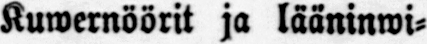Kuwernöörit ja lääninwi-
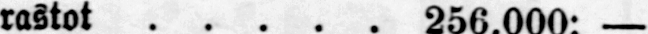rastot 256.000: —
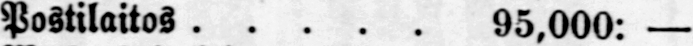Postilaitos 95,000: —
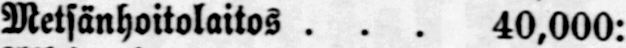Metsänhoitolaitos 40,000: —
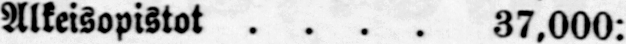Alkeisopistot 37,000: —
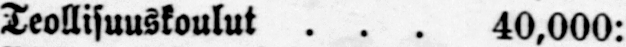Teollisuuskoulut 40,000: —
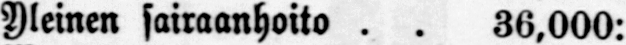Yleinen sairaanhoito 36,000: —
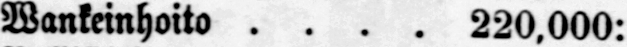Wankeinhoito 220,000: —
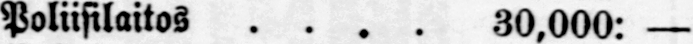Poliisilaitos 30,000: —
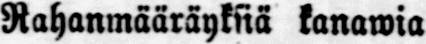Rahanmääräyksiä kanawia
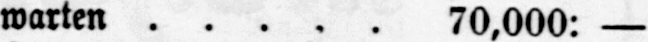warten 70,000: —
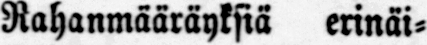Rahanmääräyksiä erinäi-
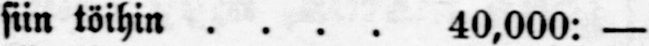siin töihin 40,000: —
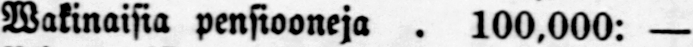Wakinaisia pensiooneja 100,000: —
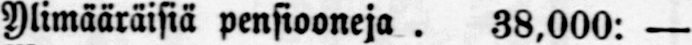Ylimääräisiä pensiooneja 38,000: —
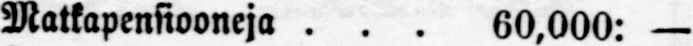Matkapensiooneja 60,000: —
